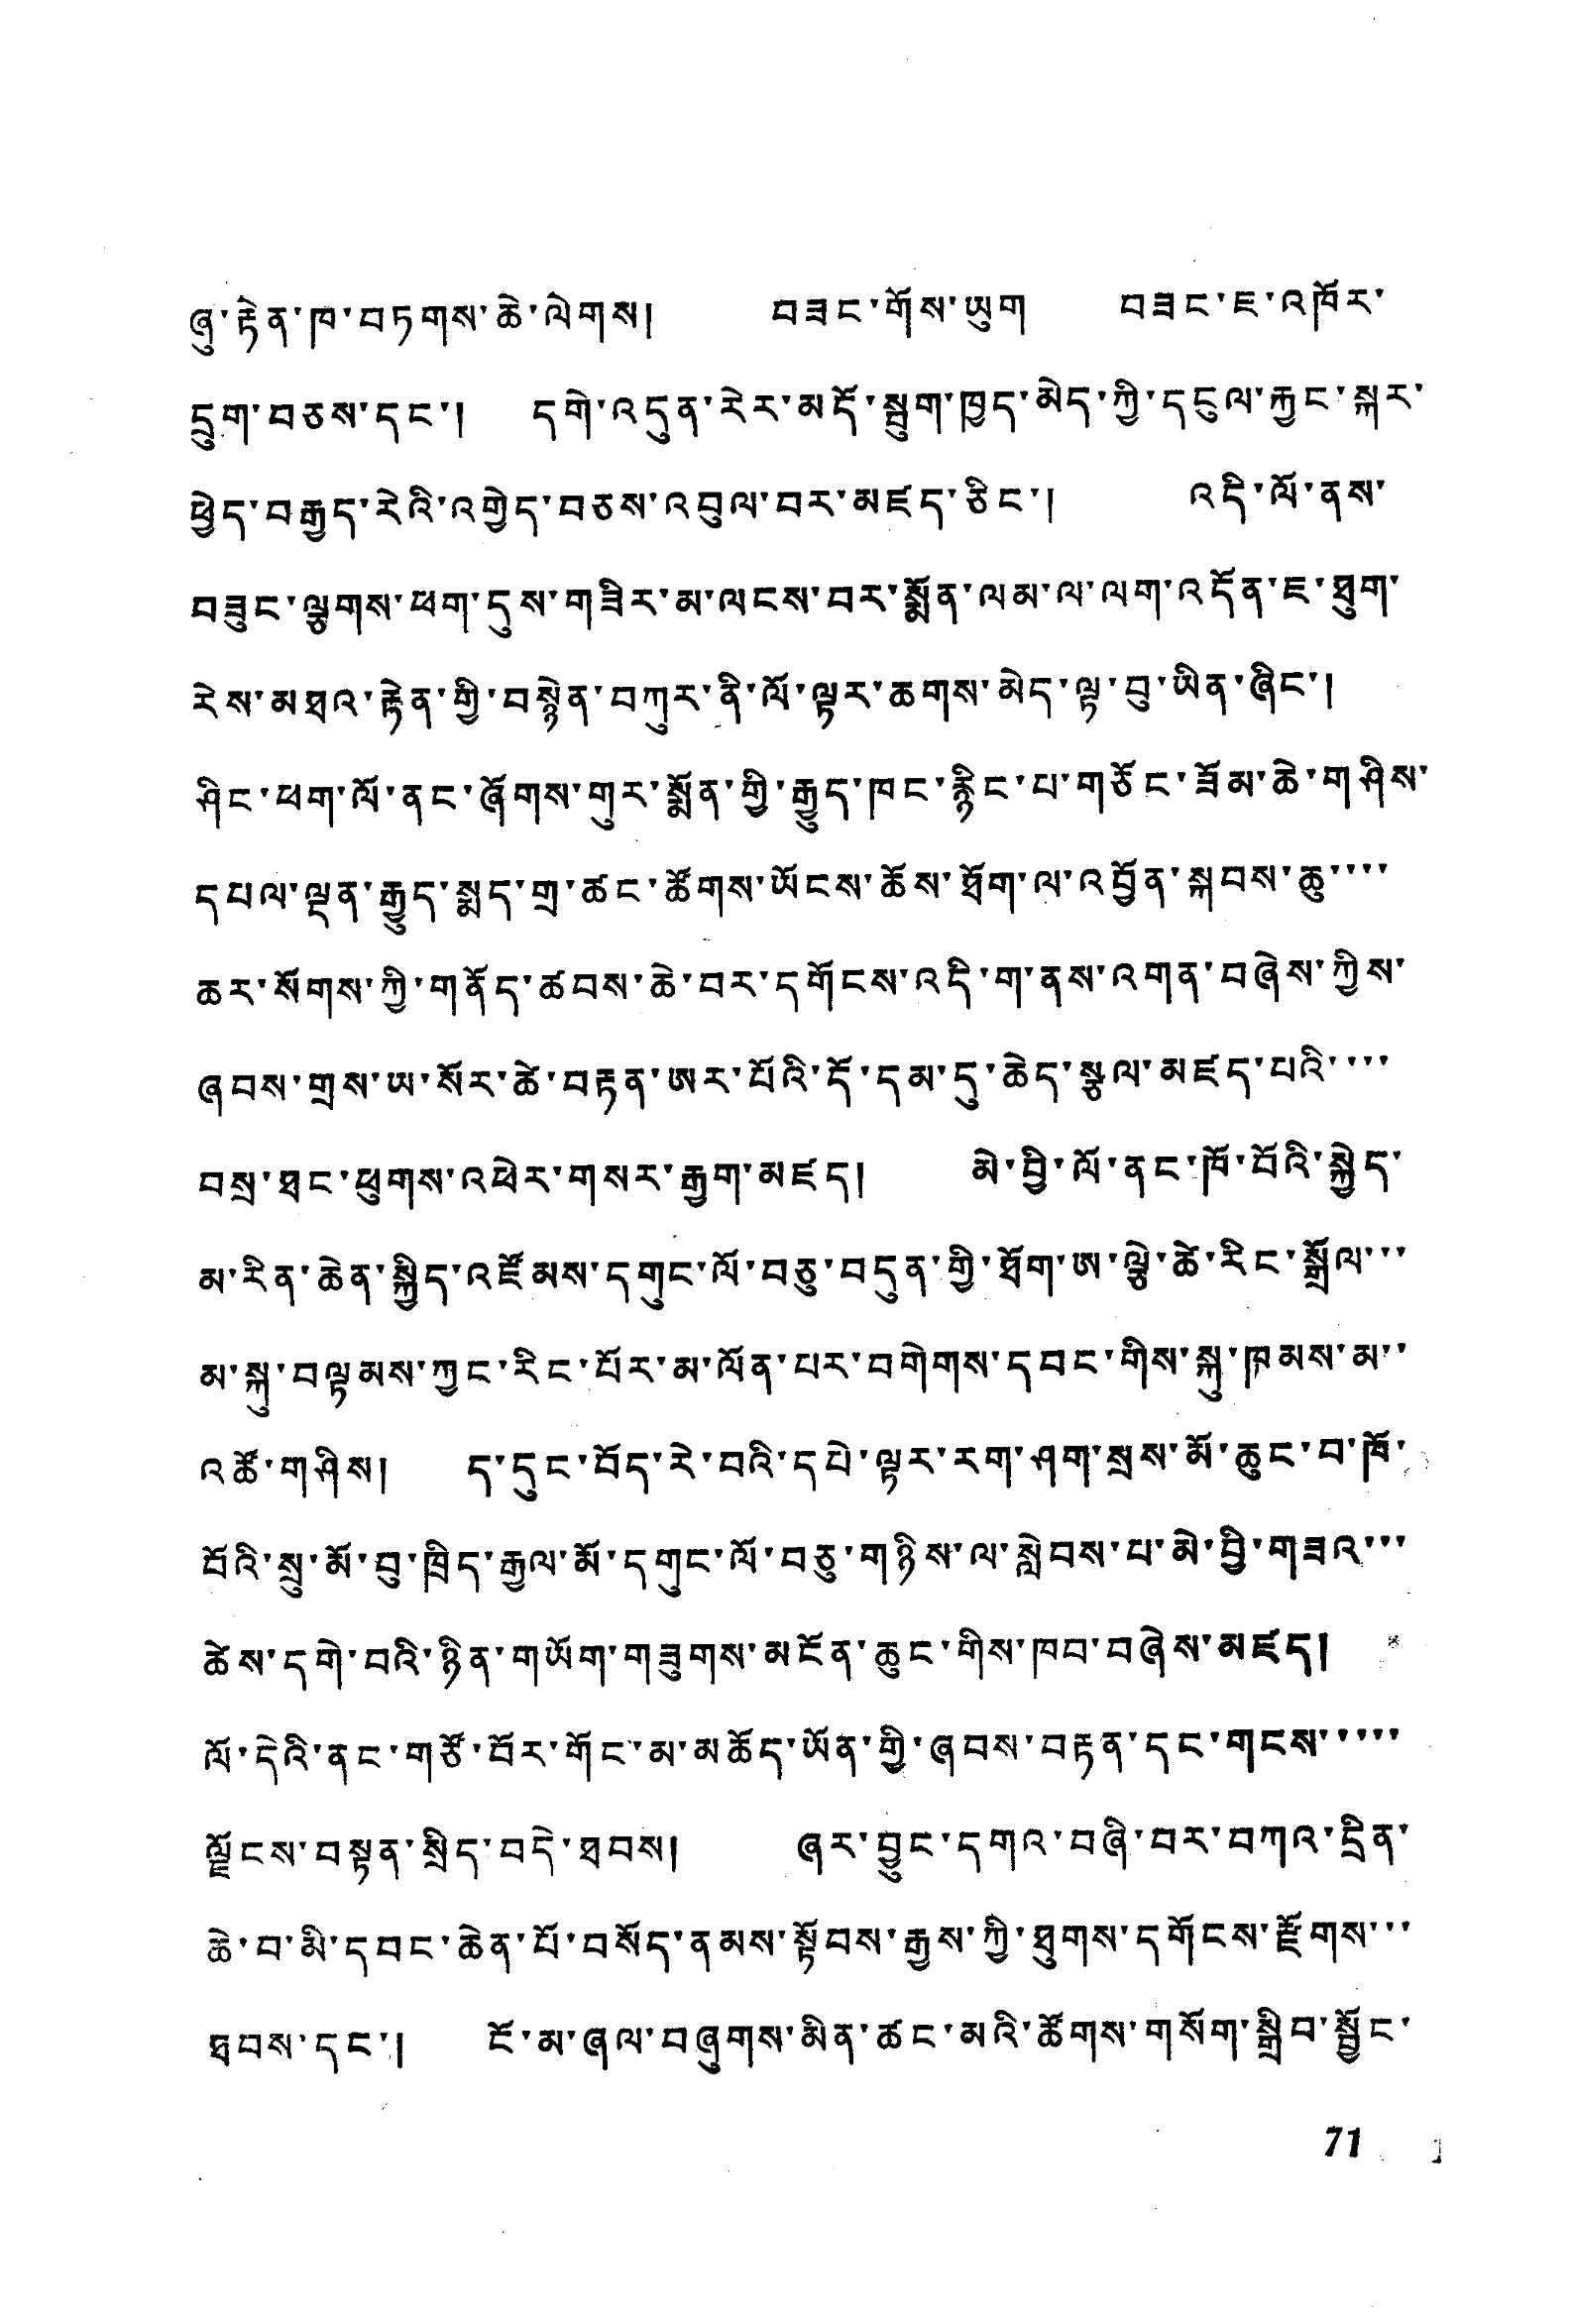ཞུ་རྟེན་ཁ་བཏགས་ཆེ་ལེགས། བཟང་གོས་ཡུག བཟང་ཇ་འཁོར་
དྲུག་བཅས་དང་། དགེ་འདུན་རེར་མདོ་སྦུག་ཁྱད་མེད་ཀྱི་དངུལ་རྐྱང་སྐར་
ཕྱེད་བརྒྱད་རེའི་འགྱེད་བཅས་འབུལ་བར་མཛད་ཅིང་། འདི་ལོ་ནས་
བཟུང་ལྕགས་ཕག་དུས་གཟིར་མ་ལངས་བར་སྨོན་ལམ་ལ་ལག་འདོན་ཇ་ཐུག་
རེས་མཐའ་རྟེན་གྱི་བསྙེན་བཀུར་ནི་ལོ་ལྟར་ཆགས་མེད་ལྟ་བུ་ཡིན་ཞིང་།
ཤིང་ཕག་ལོ་ནང་ཞོགས་གུར་སྨོན་གྱི་རྒྱུད་ཁང་རྙིང་པ་གཅོང་ཟོམ་ཆེ་གཤིས་
དཔལ་ལྡན་རྒྱུད་སྨད་གྲ་ཚང་ཚོགས་ཡོངས་ཆོས་ཐོག་ལ་འབྱོན་སྐབས་ཆུ་་་་
ཆར་སོགས་ཀྱི་གནོད་ཚབས་ཆེ་བར་དགོངས་འདི་ག་ནས་འགན་བཞེས་ཀྱིས་
ཞབས་གྲས་ཡ་སོར་ཚེ་བརྟན་ཨར་པོའི་དོ་དམ་དུ་ཆེད་སྩལ་མཛད་པའི་་་་
བསྲ་ཐང་ཕུགས་འཕེར་གསར་རྒྱག་མཛད། མེ་བྱི་ལོ་ནང་ཁོ་བོའི་སྐྱེད་
མ་རིན་ཆེན་སྐྱིད་འཛོམས་དགུང་ལོ་བཅུ་བདུན་གྱི་ཐོག་ཨ་ལྕེ་ཚེ་རིང་སྒྲོལ་་་
མ་སྐུ་བལྟམས་ཀྱང་རིང་པོར་མ་ལོན་པར་བགེགས་དབང་གིས་སྐུ་ཁམས་མ་་
འཚོ་གཤིས། ད་དུང་བོད་རེ་བའི་དཔེ་ལྟར་རག་ཤག་སྲས་མོ་ཆུང་བ་ཁོ་
བོའི་སྲུ་མོ་བུ་ཁྲིད་རྒྱལ་མོ་དགུང་ལོ་བཅུ་གཉིས་ལ་སླེབས་པ་མེ་བྱི་གཟའ་་་
ཚེས་དགེ་བའི་ཉིན་གཡོག་གཟུགས་མངོན་ཆུང་གིས་ཁམ་བཞེས་མཛད།
ལོ་དེའི་ནང་གཙོ་བོར་གོང་མ་མཆོད་ཡོན་གྱི་ཞབས་བརྟན་དང་གངས་་་་་
ལྗོངས་བསྟན་སྲིད་བདེ་ཐབས། ཞར་བྱུང་དགའ་བཞི་བར་བཀའ་དྲིན་
ཆེ་བ་མི་དབང་ཆེན་པོ་བསོད་ནམས་སྟོབས་རྒྱས་ཀྱི་ཐུགས་དགོངས་རྫོགས་་་
ཐབས་དང་། ངོ་མ་ཞལ་བཞུགས་མིན་ཚང་མའི་ཚོགས་གསོག་སྒྲིབ་སྦྱོང་
71
